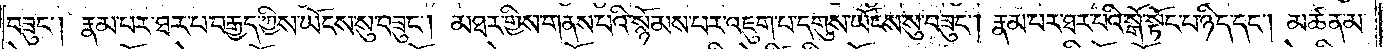བཟུང༌། རྣམ་པར་ཐར་པ་བརྒྱད་ཀྱིས་ཡོངས་སུ་བཟུང༌། མཐར་གྱིས་གནས་པའི་སྙོམས་པར་འཇུག་པ་དགུས་ཡོངས་སུ་བཟུང༌། རྣམ་པར་ཐར་པའི་སྒོ་སྟོང་པ་ཉིད་དང༌། མཚན་མ་
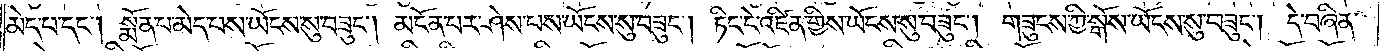མེད་པ་དང༌། སྨོན་པ་མེད་པས་ཡོངས་སུ་བཟུང༌། མངོན་པར་ཤེས་པས་ཡོངས་སུ་བཟུང༌། ཏིང་ངེ་འཛིན་གྱིས་ཡོངས་སུ་བཟུང༌། གཟུངས་ཀྱི་སྒོས་ཡོངས་སུ་བཟུང༌། དེ་བཞིན་
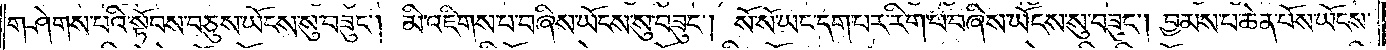གཤེགས་པའི་སྟོབས་བཅུས་ཡོངས་སུ་བཟུང༌། མི་འཇིགས་པ་བཞིས་ཡོངས་སུ་བཟུང༌། སོ་སོ་ཡང་དག་པར་རིག་པ་བཞིས་ཡོངས་སུ་བཟུང༌། བྱམས་པ་ཆེན་པོས་ཡོངས་
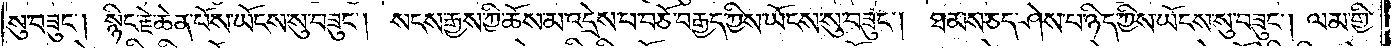སུ་བཟུང༌། སྙིང་རྗེ་ཆེན་པོས་ཡོངས་སུ་བཟུང༌། སངས་རྒྱས་ཀྱི་ཆོས་མ་འདྲེས་པ་བཅོ་བརྒྱད་ཀྱིས་ཡོངས་སུ་བཟུང༌། ཐམས་ཅད་ཤེས་པ་ཉིད་ཀྱིས་ཡོངས་སུ་བཟུང༌། ལམ་གྱི་
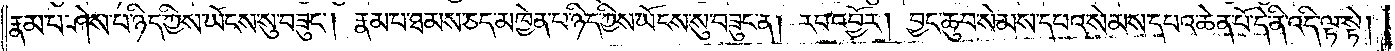རྣམ་པ་ཤེས་པ་ཉིད་ཀྱིས་ཡོངས་སུ་བཟུང༌། རྣམ་པ་ཐམས་ཅད་མཁྱེན་པ་ཉིད་ཀྱིས་ཡོངས་སུ་བཟུང་ན། རབ་འབྱོར། བྱང་ཆུབ་སེམས་དཔའ་སེམས་དཔའ་ཆེན་པོ་དེ་ནི་འདི་ལྟ་སྟེ།
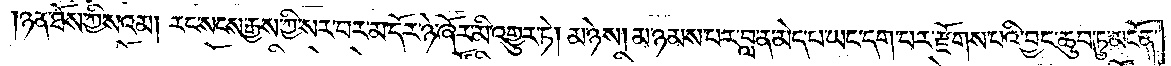ཉན་ཐོས་ཀྱི་སའམ། རང་སངས་རྒྱས་ཀྱི་སར་བར་མ་དོར་ཉེ་ཞོར་མི་འགྱུར་ཏེ། མ་ཉེས་མ་ཉམས་པར་བླ་ན་མེད་པ་ཡང་དག་པར་རྫོགས་པའི་བྱང་ཆུབ་ཏུ་མངོན་
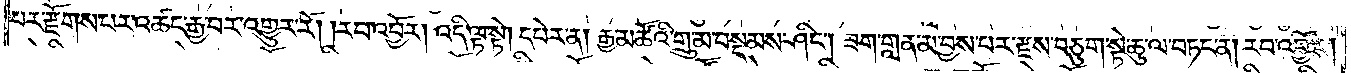པར་རྫོགས་པར་འཚང་རྒྱ་བར་འགྱུར་རོ། །རབ་འབྱོར། འདི་ལྟ་སྟེ། དཔེར་ན། རྒྱ་མཚོའི་གྲུ་མ་བསྡམས་ཤིང༌། ཟག་ཀླན་མ་བྱས་པར་རྫས་བཅུག་སྟེ་ཆུ་ལ་བཏང་ན། རབ་འབྱོར།
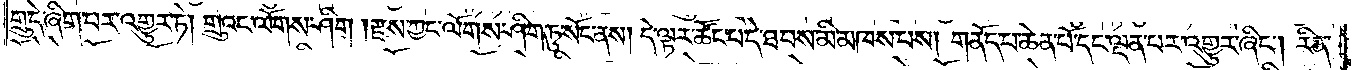གྲུ་དེ་ཞིག་པར་འགྱུར་ཏེ། གྲུའང་ལོགས་ཤིག །རྫས་ཀྱང་ལོགས་ཤིག་ཏུ་སོང་ནས། དེ་ལྟར་ཚོང་པ་དེ་ཐབས་མི་མཁས་པས། གནོད་པ་ཆེན་པོ་དང་ལྡན་པར་འགྱུར་ཞིང༌། རིན་
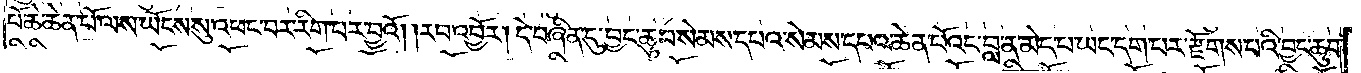པོ་ཆེ་ཆེན་པོ་ལས་ཡོངས་སུ་འཕང་བར་རིག་པར་བྱའོ། །རབ་འབྱོར། དེ་བཞིན་དུ་བྱང་ཆུབ་སེམས་དཔའ་སེམས་དཔའ་ཆེན་པོའང་བླ་ན་མེད་པ་ཡང་དག་པར་རྫོགས་པའི་བྱང་ཆུབ་
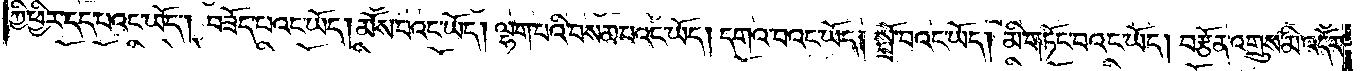ཀྱི་ཕྱིར་དད་པའང་ཡོད། བཟོད་པའང་ཡོད། མོས་པའང་ཡོད། ལྷག་པའི་བསམ་པའང་ཡོད། དགའ་བའང་ཡོད། སྤྲོ་བའང་ཡོད། མི་གཏོང་བའང་ཡོད། བརྩོན་འགྲུས་མི་འདོར་
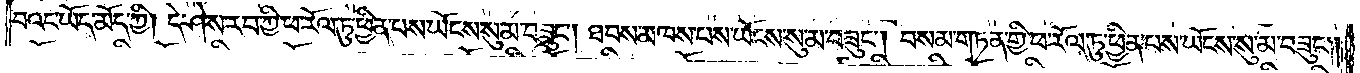བའང་ཡོད་མོད་ཀྱི། དེ་ཤེས་རབ་ཀྱི་ཕ་རོལ་ཏུ་ཕྱིན་པས་ཡོངས་སུ་མ་བཟུང༌། ཐབས་མཁས་པས་ཡོངས་སུ་མ་བཟུང༌། བསམ་གཏན་གྱི་ཕ་རོལ་ཏུ་ཕྱིན་པས་ཡོངས་སུ་མ་བཟུང༌།
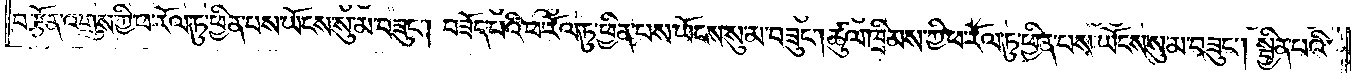བརྩོན་འགྲུས་ཀྱི་ཕ་རོལ་ཏུ་ཕྱིན་པས་ཡོངས་སུ་མ་བཟུང༌། བཟོད་པའི་ཕ་རོལ་ཏུ་ཕྱིན་པས་ཡོངས་སུ་མ་བཟུང༌། ཚུལ་ཁྲིམས་ཀྱི་ཕ་རོལ་ཏུ་ཕྱིན་པས་ཡོངས་སུ་མ་བཟུང༌། སྦྱིན་པའི་
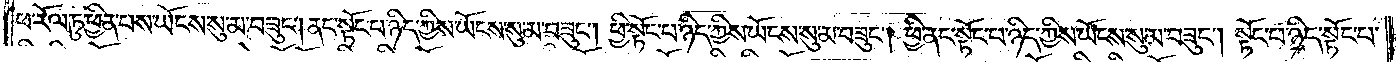ཕ་རོལ་ཏུ་ཕྱིན་པས་ཡོངས་སུ་མ་བཟུང༌། ནང་སྟོང་པ་ཉིད་ཀྱིས་ཡོངས་སུ་མ་བཟུང༌། ཕྱི་སྟོང་པ་ཉིད་ཀྱིས་ཡོངས་སུ་མ་བཟུང༌། ཕྱི་ནང་སྟོང་པ་ཉིད་ཀྱིས་ཡོངས་སུ་མ་བཟུང༌། སྟོང་པ་ཉིད་སྟོང་པ་
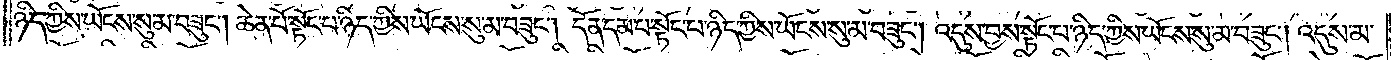ཉིད་ཀྱིས་ཡོངས་སུ་མ་བཟུང༌། ཆེན་པོ་སྟོང་པ་ཉིད་ཀྱིས་ཡོངས་སུ་མ་བཟུང༌། དོན་དམ་པ་སྟོང་པ་ཉིད་ཀྱིས་ཡོངས་སུ་མ་བཟུང༌། འདུས་བྱས་སྟོང་པ་ཉིད་ཀྱིས་ཡོངས་སུ་མ་བཟུང༌། འདུས་མ་
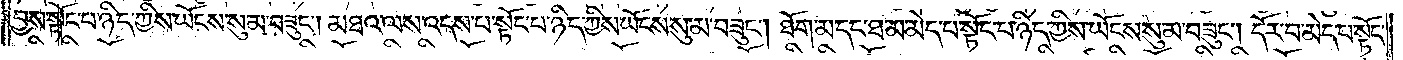བྱས་སྟོང་པ་ཉིད་ཀྱིས་ཡོངས་སུ་མ་བཟུང༌། མཐའ་ལས་འདས་པ་སྟོང་པ་ཉིད་ཀྱིས་ཡོངས་སུ་མ་བཟུང༌། ཐོག་མ་དང་ཐ་མ་མེད་པ་སྟོང་པ་ཉིད་ཀྱིས་ཡོངས་སུ་མ་བཟུང༌། དོར་བ་མེད་པ་སྟོང་
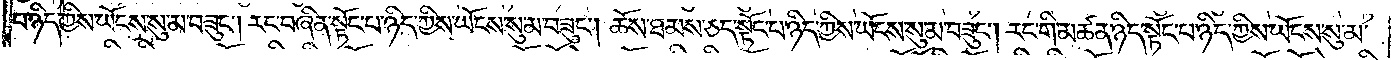པ་ཉིད་ཀྱིས་ཡོངས་སུ་མ་བཟུང༌། རང་བཞིན་སྟོང་པ་ཉིད་ཀྱིས་ཡོངས་སུ་མ་བཟུང༌། ཆོས་ཐམས་ཅད་སྟོང་པ་ཉིད་ཀྱིས་ཡོངས་སུ་མ་བཟུང༌། རང་གི་མཚན་ཉིད་སྟོང་པ་ཉིད་ཀྱིས་ཡོངས་སུ་མ་
